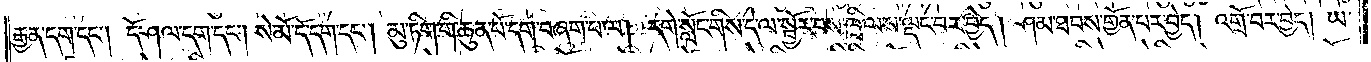རྒྱན་དག་དང༌། དོ་ཤལ་དག་དང༌། སེ་མོ་དོ་དག་དང༌། མུ་ཏིག་གི་ཆུན་པོ་དག་བཞག་པ་ལ། དགེ་སློང་གིས་དེ་ལ་སྦྱོར་བས་ཁྲི་ལས་ལྡང་བར་བྱེད། ཤམ་ཐབས་གྱོན་པར་བྱེད། འགྲོ་བར་བྱེད། ཡ་
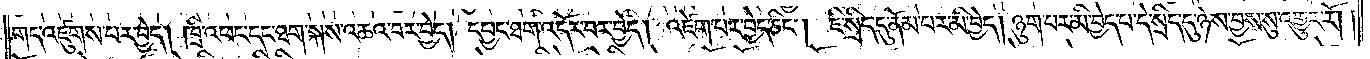གད་འཛུགས་པར་བྱེད། ཁྲི་འཕང་དང་ཐག་སྐས་འཆའ་བར་བྱེད། དཔྱང་ཐག་འདོར་བར་བྱེད། འཛེག་པར་བྱེད་ཅིང༌། ཇི་སྲིད་དུ་ནོམ་པར་མི་བྱེད། ཉུག་པར་མི་བྱེད་པ་དེ་སྲིད་དུ་ཉེས་བྱས་སུ་འགྱུར་རོ། །
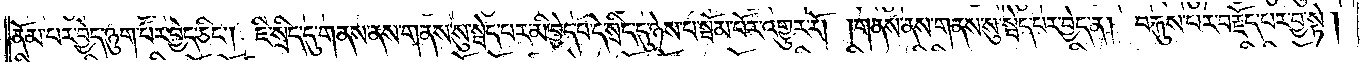ནོམ་པར་བྱེད་ཉུག་པར་བྱེད་ཅིང༌། ཇི་སྲིད་དུ་གནས་ནས་གནས་སུ་སྦེད་པར་མི་བྱེད་པ་དེ་སྲིད་དུ་ཉེས་པ་སྦོམ་པོར་འགྱུར་རོ། །གནས་ནས་གནས་སུ་སྦེད་པར་བྱེད་ན། བརྐུས་པར་བརྗོད་པར་བྱ་སྟེ་།
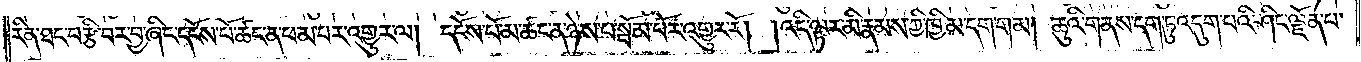རིན་ཐང་བརྩི་བར་བྱ་ཞིང་དངོས་པོ་ཚང་ན་ཕམ་པར་འགྱུར་ལ། དངོས་པོ་མ་ཚང་ན་ཉེས་པ་སྦོམ་པོར་འགྱུར་རོ། །འདི་ལྟར་མི་རྣམས་ཀྱི་ཁྱིམ་དག་གམ། ཆུའི་གནས་དག་ཏུ་འདུག་པའི་ཤིང་ལྗོན་པ་
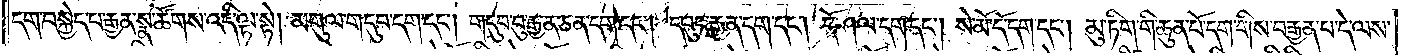དག་བསྐྱེད་པ་རྒྱན་སྣ་ཚོགས་འདི་ལྟ་སྟེ། མགུལ་གདུབ་དག་དང༌། གདུབ་བུ་རྒྱན་ཅན་དག་དང༌། དཔུང་རྒྱན་དག་དང༌། དོ་ཤལ་དག་དང༌། སེ་མོ་དོ་དག་དང༌། མུ་ཏིག་གི་ཆུན་པོ་དག་གིས་བརྒྱན་པ་དེ་ལས་
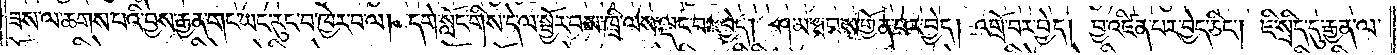ཟས་ལ་ཆགས་པའི་བྱས་རྒྱན་གང་ཡང་རུང་བ་ཁྱེར་བ་ལ། དགེ་སློང་གིས་དེ་ལ་སྦྱོར་བས་ཁྲི་ལས་ལྡང་བར་བྱེད། ཤམ་ཐབས་གྱོན་པར་བྱེད། འགྲོ་བར་བྱེད། བྱ་འཛིན་པར་བྱེད་ཅིང༌། ཇི་སྲིད་དུ་རྒྱན་ལ་
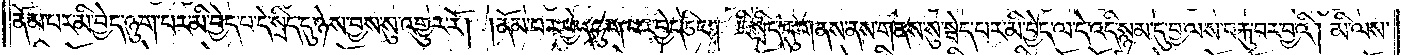ནོམ་པར་མི་བྱེད་ཉུག་པར་མི་བྱེད་པ་དེ་སྲིད་དུ་ཉེས་བྱས་སུ་འགྱུར་རོ། །ནོམ་པར་བྱེད་ཉུག་པར་བྱེད་ཅིང༌། ཇི་སྲིད་དུ་གནས་ནས་གནས་སུ་སྦེད་པར་མི་བྱེད་ལ་དེ་འདི་སྙམ་དུ་བྱ་ལས་བརྐུ་བར་བྱའི། མི་ལས་
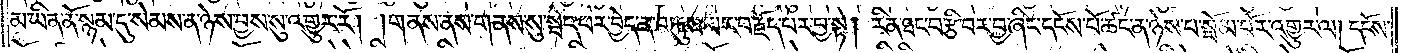མ་ཡིན་ནོ་སྙམ་དུ་སེམས་ན་ཉེས་བྱས་སུ་འགྱུར་རོ། །གནས་ནས་གནས་སུ་སྦེད་པར་བྱེད་ན་བརྐུས་པར་བརྗོད་པར་བྱ་སྟེ། རིན་ཐང་བརྩི་བར་བྱ་ཞིང་དངོས་པོ་ཚང་ན་ཉེས་པ་སྦོམ་པོར་འགྱུར་ལ། དངོས་
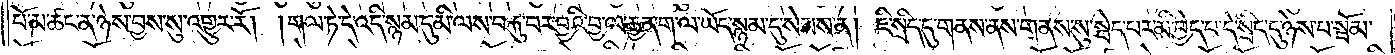པོ་མ་ཚང་ན་ཉེས་བྱས་སུ་འགྱུར་རོ། །གལ་ཏེ་དེ་འདི་སྙམ་དུ་མི་ལས་བརྐུ་བར་བྱའི་བྱ་ལ་རྒྱན་ག་ལ་ཡོད་སྙམ་དུ་སེམས་ན། ཇི་སྲིད་དུ་གནས་ནས་གནས་སུ་སྦེད་པར་མི་བྱེད་པ་དེ་སྲིད་དུ་ཉེས་པ་སྦོམ་
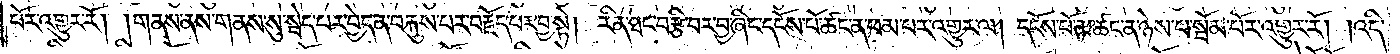པོར་འགྱུར་རོ། །གནས་ནས་གནས་སུ་སྦེད་པར་བྱེད་ན་བརྐུས་པར་བརྗོད་པར་བྱ་སྟེ། རིན་ཐང་བརྩི་བར་བྱ་ཞིང་དངོས་པོ་ཚང་ན་ཕམ་པར་འགྱུར་ལ། དངོས་པོ་མ་ཚང་ན་ཉེས་པ་སྦོམ་པོར་འགྱུར་རོ། །འདི་
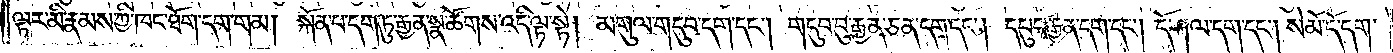ལྟར་མི་རྣམས་ཀྱི་ཁང་ཐོག་དག་གམ། སྐོན་པ་དག་ཏུ་རྒྱན་སྣ་ཚོགས་འདི་ལྟ་སྟེ། མགུལ་གདུབ་དག་དང༌། གདུབ་བུ་རྒྱན་ཅན་དག་དང༌། དཔུང་རྒྱན་དག་དང༌། དོ་ཤལ་དག་དང༌། སེ་མོ་དོ་དག་
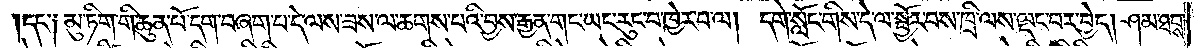དང་༑ མུ་ཏིག་གི་ཆུན་པོ་དག་བཞག་པ་དེ་ལས་ཟས་ལ་ཆགས་པའི་བྱས་རྒྱན་གང་ཡང་རུང་བ་ཁྱེར་བ་ལ། དགེ་སློང་གིས་དེ་ལ་སྦྱོར་བས་ཁྲི་ལས་ལྡང་བར་བྱེད། ཤམ་ཐབས་
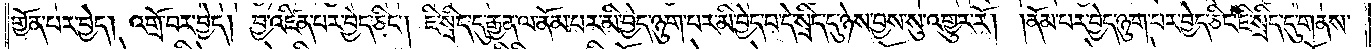གྱོན་པར་བྱེད། འགྲོ་བར་བྱེད། བྱ་འཛིན་པར་བྱེད་ཅིང༌། ཇི་སྲིད་དུ་རྒྱན་ལ་ནོམ་པར་མི་བྱེད་ཉུག་པར་མི་བྱེད་པ་དེ་སྲིད་དུ་ཉེས་བྱས་སུ་འགྱུར་རོ། །ནོམ་པར་བྱེད་ཉུག་པར་བྱེད་ཅིང་ཇི་སྲིད་དུ་གནས་
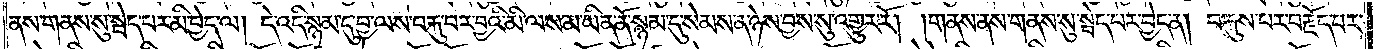ནས་གནས་སུ་སྦེད་པར་མི་བྱེད་ལ། དེ་འདི་སྙམ་དུ་བྱ་ལས་བརྐུ་བར་བྱའི་མི་ལས་མ་ཡིན་ནོ་སྙམ་དུ་སེམས་ན་ཉེས་བྱས་སུ་འགྱུར་རོ། །གནས་ནས་གནས་སུ་སྦེད་པར་བྱེད་ན། བརྐུས་པར་བརྗོད་པར་
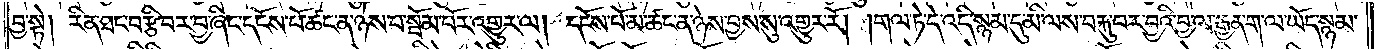བྱ་སྟེ། རིན་ཐང་བརྩི་བར་བྱ་ཞིང་དངོས་པོ་ཚང་ན་ཉེས་པ་སྦོམ་པོར་འགྱུར་ལ། དངོས་པོ་མ་ཚང་ན་ཉེས་བྱས་སུ་འགྱུར་རོ། །གལ་ཏེ་དེ་འདི་སྙམ་དུ་མི་ལས་བརྐུ་བར་བྱའི་བྱ་ལ་རྒྱན་ག་ལ་ཡོད་སྙམ་
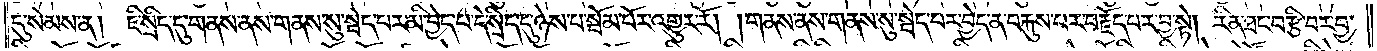དུ་སེམས་ན། ཇི་སྲིད་དུ་གནས་ནས་གནས་སུ་སྦེད་པར་མི་བྱེད་པ་དེ་སྲིད་དུ་ཉེས་པ་སྦོམ་པོར་འགྱུར་རོ། །གནས་ནས་གནས་སུ་སྦེད་པར་བྱེད་ན་བརྐུས་པར་བརྗོད་པར་བྱ་སྟེ། རིན་ཐང་བརྩི་བར་བྱ་
